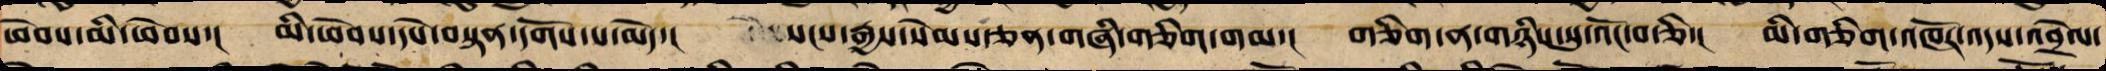ཕེབས་མི་ཕེབས་། མི་ཕེབས་དཔེ་བསྟན་དགོས་པ་མེད་། སངས་རྒྱས་སེམས་ཅན་གཞི་གཅིག་གམ་། གཅིག་ན་གཉིས་སུ་འོང་བ་ཅི་། མི་གཅིག་འཁོར་འདས་འབྲེལ་
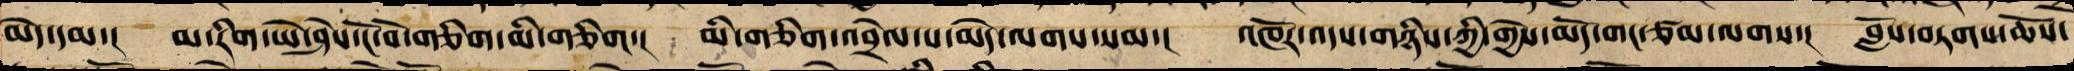མེད་དམ་། མ་རིག་ཡེ་ཤེས་ངོ་བོ་གཅིག་མི་གཅིག་ མི་གཅིག་འབྲེལ་བ་མེད་ལགས་སམ་། འཁོར་འདས་གཉིས་ཀྱི་གྱེས་མདོ་གང་ཙམ་ལགས་། བློས་བཏགས་ཆོས་
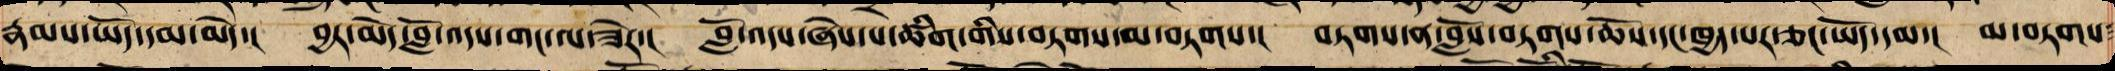རྣམས་ཡོད་དམ་མེད་། བྱར་མེད་བློ་འདས་གང་ལ་ཟེར་། བློ་འདས་ཞེས་པ་ཚིག་གིས་བཏགས་མི་བཏགས་། བཏགས་ན་བློས་བཏགས་ཆོས་དང་ཁྱད་པར་ཅང་ཡོད་དམ་། མ་བཏགས་
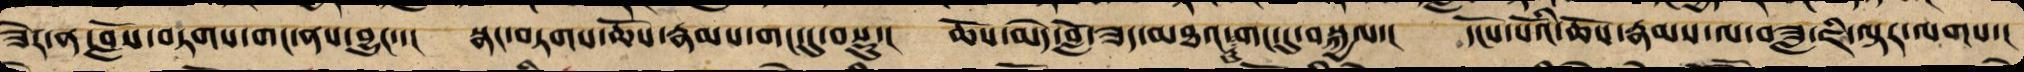ཟེར་ན་བློས་བཏགས་གང་ནས་བྱུང་་། སྣང་བཏགས་ཆོས་རྣམས་གང་དུ་བསྡུ་། ཆོས་མེད་བློ་ཟད་མཐའ་རུ་གང་དུ་བསྐྱལ་། དངོས་པོའི་ཆོས་རྣམས་ལ་བཟླ་ཇི་ལྟར་ལགས་།
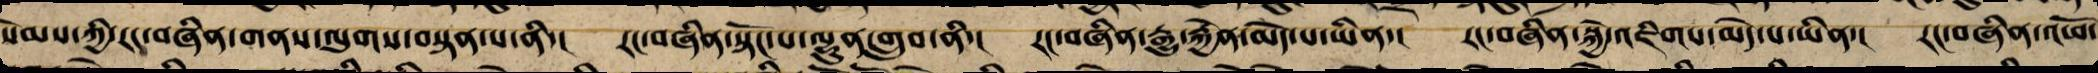སེམས་ཀྱི་རང་བཞིན་གནས་ལུགས་བསྟན་པ་ནི་། རང་བཞིན་སྟོང་པ་ལྷུན་གྲུབ་ཡིན་། རང་བཞིན་རྒྱུ་རྐྱེན་མེད་པ་ཡིན་། རང་བཞིན་སྐྱེ་འཇིགས་མེད་པ་ཡིན་། རང་བཞིན་འཕོ་
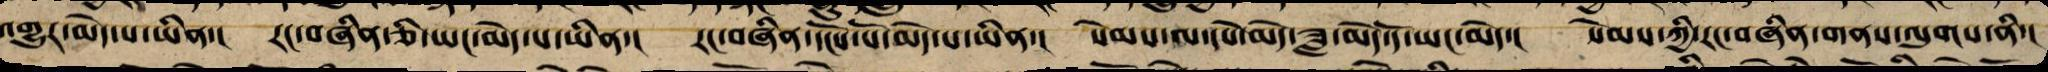འགྱུར་མེད་པ་ཡིན་། རང་བཞིན་ཅི་ཡང་མེད་པ་ཡིན་། རང་བཞིན་དངོས་པོ་མེད་པ་ཡིན་། སེམས་ལ་དཔེ་མེད་ཟླ་མེད་དོ་ཡང་མེད་། སེམས་ཀྱི་རང་བཞིན་གནས་ལུགས་ནི་།
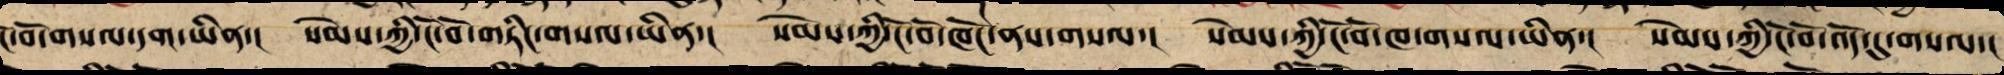ངོ་བོ་གསལ་དག་ཡིན་། སེམས་ཀྱི་ངོ་བོ་གཏིང་གསལ་ཡིན་། སེམས་ཀྱི་ངོ་བོ་ཁོང་ནས་གསལ་། སེམས་ཀྱི་ངོ་བོ་ཁ་གསལ་ཡིན་། སེམས་ཀྱི་ངོ་བོ་འོད་དུ་གསལ་།
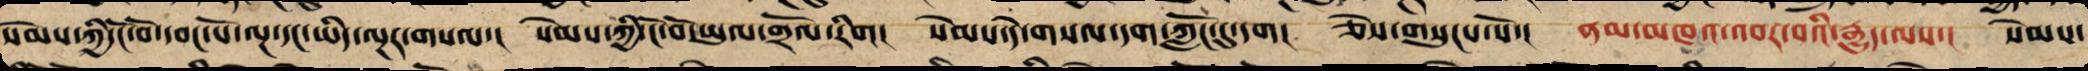སེམས་ཀྱི་ངོ་བོ་དབང་པོ་ལྔ་དང་ཡིད་ལྔར་གསལ་། སེམས་ཀྱི་ངོ་བོ་ཡུལ་གྲོལ་རིག། སེམས་དེ་གསལ་དག་ཀློང་དུ་དག། ཅེས་གསུངས་སོ་། ནམ་མཁའ་འབར་བའི་རྒྱུད་ལས་། སེམས་
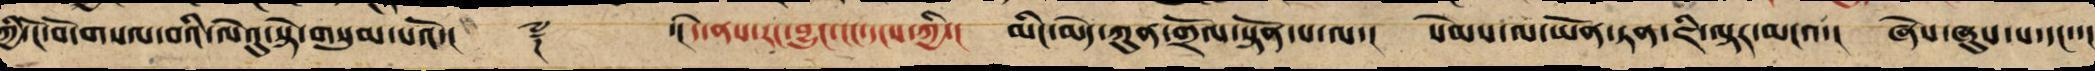ཀྱི་ངོ་བོ་གསལ་བའི་ལེའུ་སྟེ་གསུམ་པའོ་།། ༈ ་།། དེ་ནས་རང་བྱུང་ངང་དྭངས་ཀྱིས་། མིང་མེད་ཀུན་གྲོལ་སྟོན་པ་ལ་། སེམས་ལ་ཡོན་ཏན་ཇི་ལྟར་མངའ་། ཞེས་ཞུས་པ་དང་་།
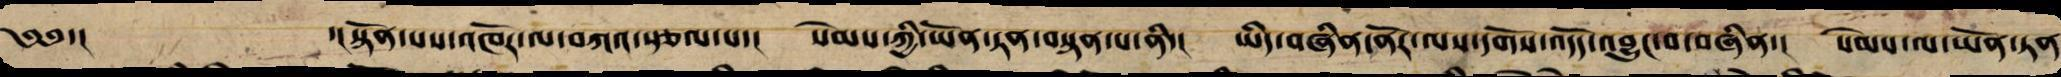༄༅་། ་།སྟོན་པས་འཁོར་ལ་བཀའ་སྩལ་པ་། སེམས་ཀྱི་ཡོན་ཏན་བསྟན་པ་ནི་། ཡིད་བཞིན་ནོར་ལས་དགོས་འདོད་འབྱུང་བ་བཞིན་། སེམས་ལ་ཡོན་ཏན
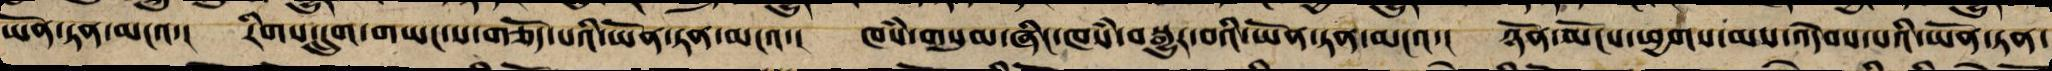ཡོན་ཏན་མངའ་། རིགས་དྲུག་གཡང་ས་གཅོད་པའི་ཡོན་ཏན་མངའ་། ཁཾས་གསུམ་ཞིང་ཁཾས་བསྒྱུར་བའི་ཡོན་ཏན་མངའ་། ཉོན་མོངས་ཕྱགས་མས་འདེབས་པའི་ཡོན་ཏན་
